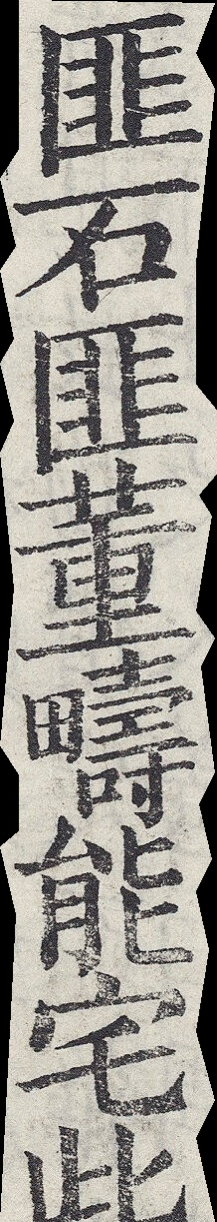匪石匪董疇能宅此
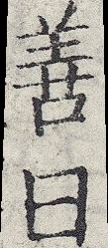善曰
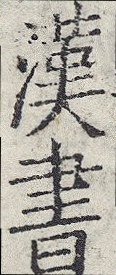漢書
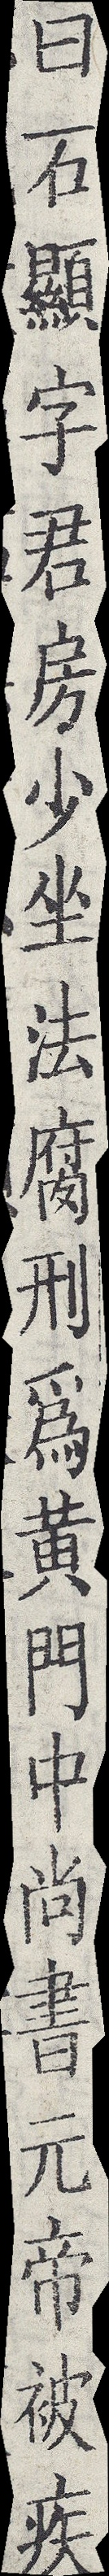曰石顯字君房少坐法腐刑為黃門中尚書元帝被疾
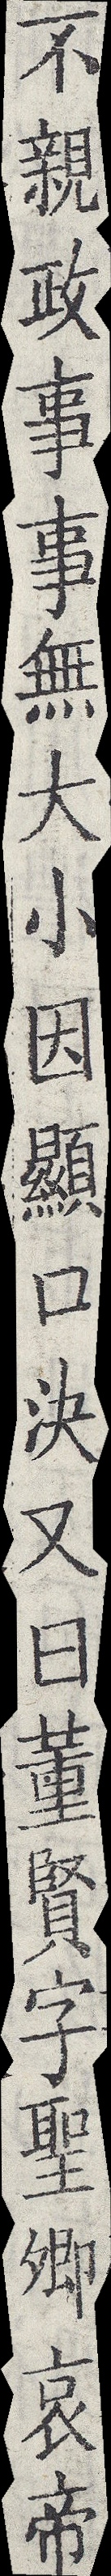不親政事事無大小因顯口決又曰董賢字聖卿哀帝
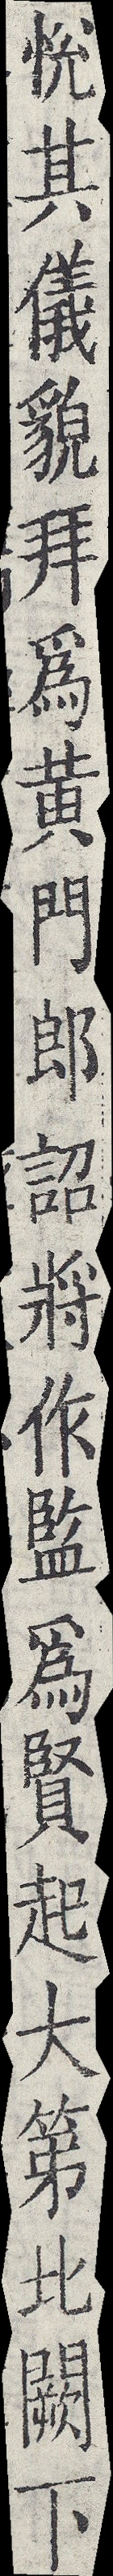悅其儀貌拜為黃門郎詔將作監為賢起大第北闕下
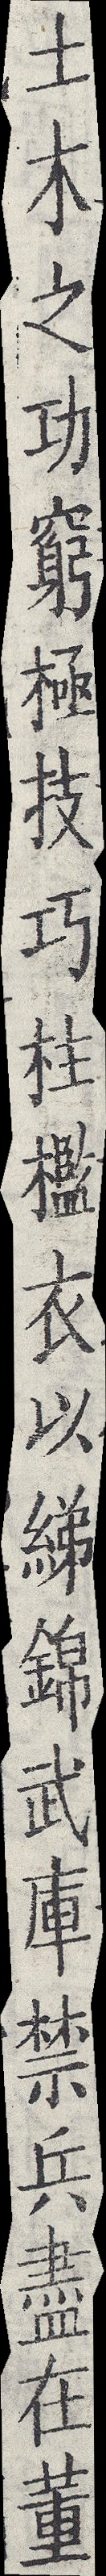土木之功窮極技巧柱檻衣以綈錦武庫禁兵盡在董
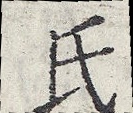氏
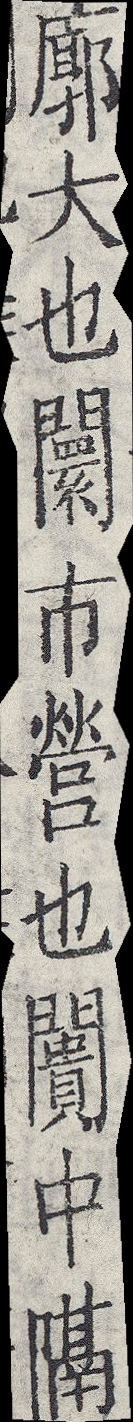廓大也闤市營也闠中隔
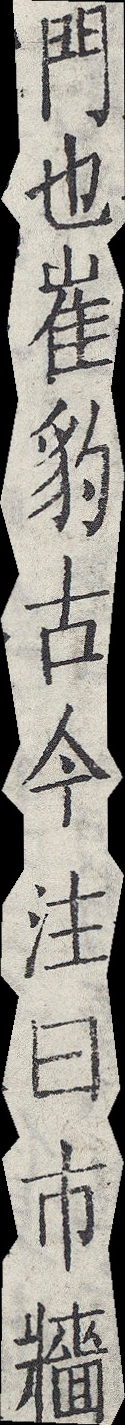門也崔豹古今注曰市牆
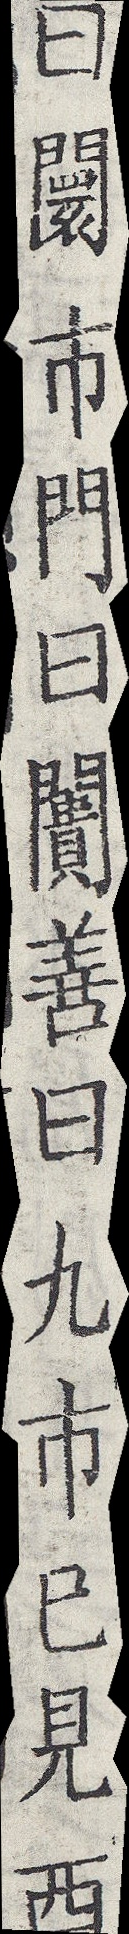曰闤市門曰闠善曰九市已見西
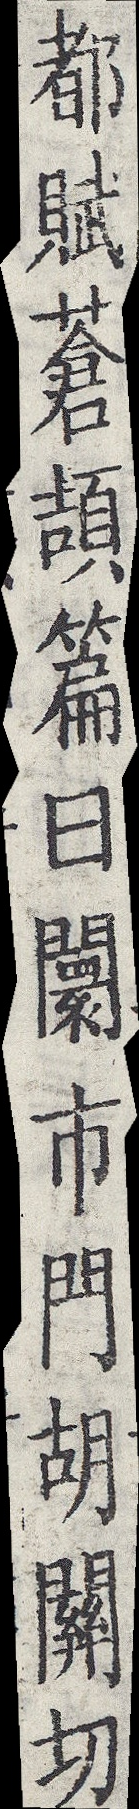都賦蒼頡篇曰闤市門胡關切
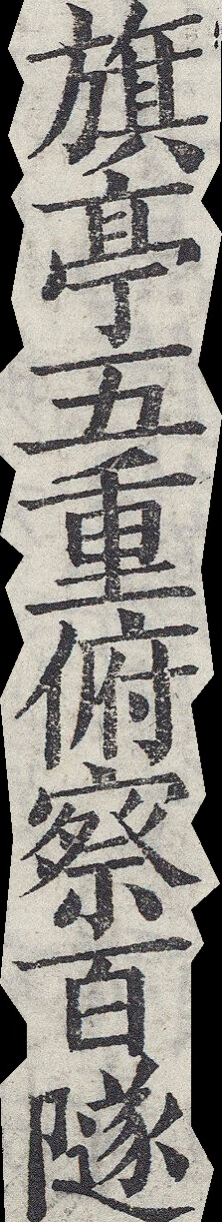旗亭五重俯察百隧
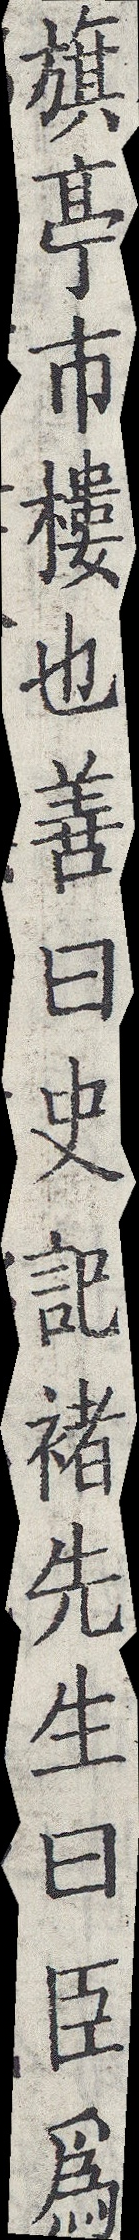旗亭市樓也善曰史記褚先生曰臣爲
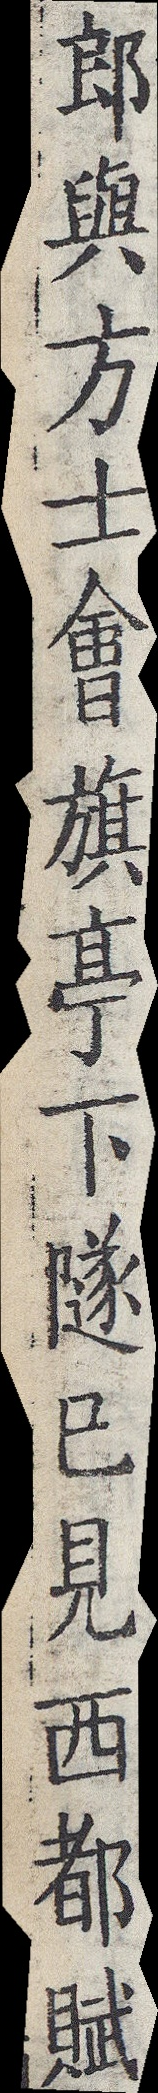郎與方士會旗亭下隧已見西都賦
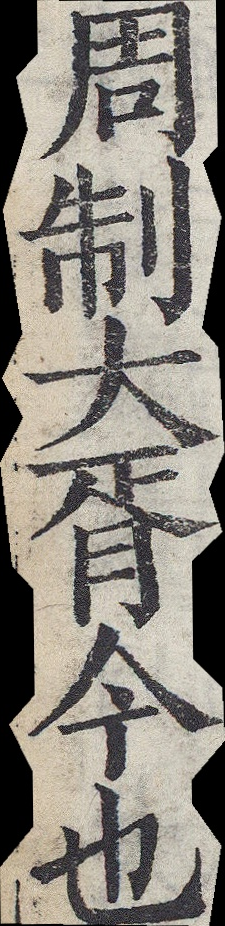周制大胥今也
